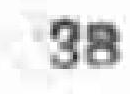38
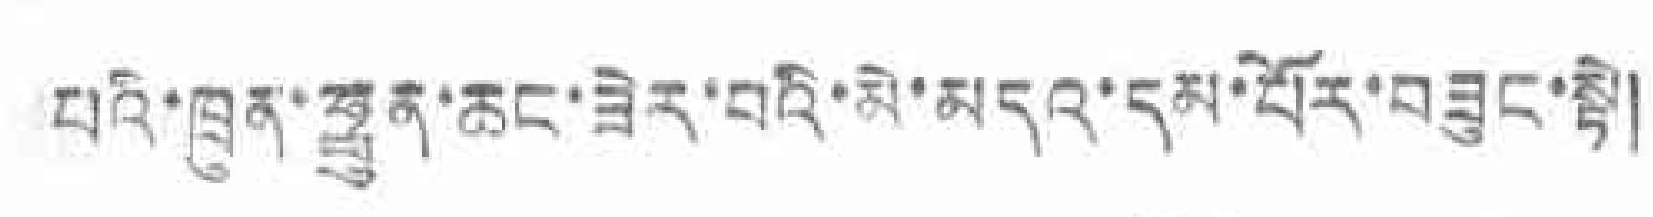པའི་ཁྲུན་ཧྥུན་ཆང་ཟེར་བའི་མེ་མདའ་དམ་པོར་བཟུང་སྟ།
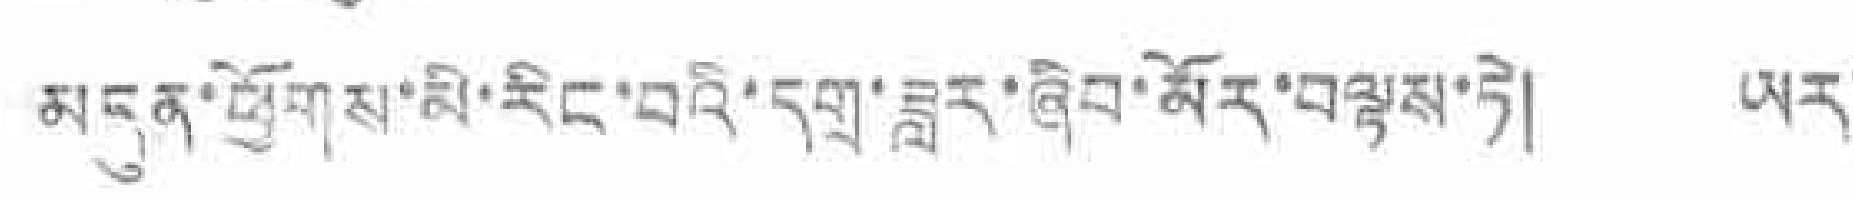མདུན་ཕྱོགས་མི་རིང་བའ་དགྲ་ཟླར་ཞིབ་མོར་བསྟས་ཏེ། ཡར་
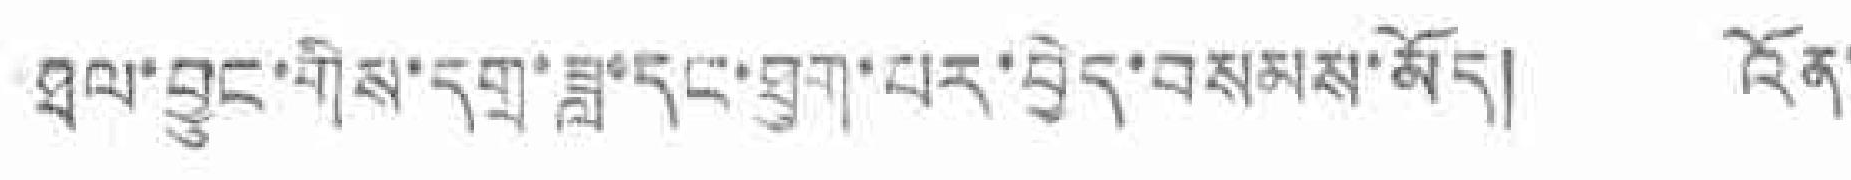ཐལ་བྱུང་གིས་དགྲ་ཟླ་དང་ཐུག་པར་བྱེད་བསམས་མོད། འོན་
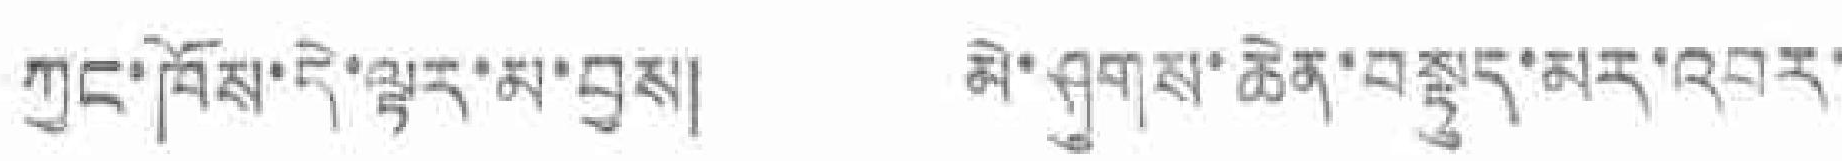ཀྱང་ཁོས་དེ་ལྟར་མ་བྱས། མེ་ཤུགས་ཆེན་བསྟུད་མར་འབར་
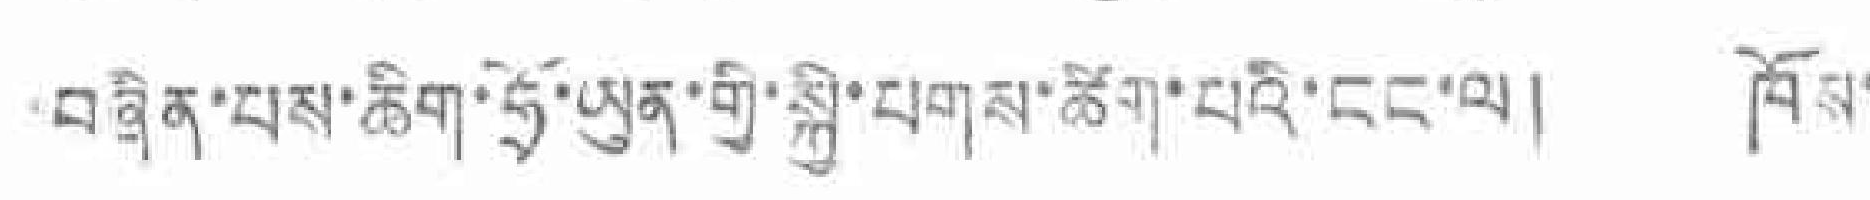བཞིན་པས་ཆིག་ཧྲོ་ཡུན་གྱི་སྐྱི་པགས་ཚིག་པའི་ངང་ལ། ཁོས་
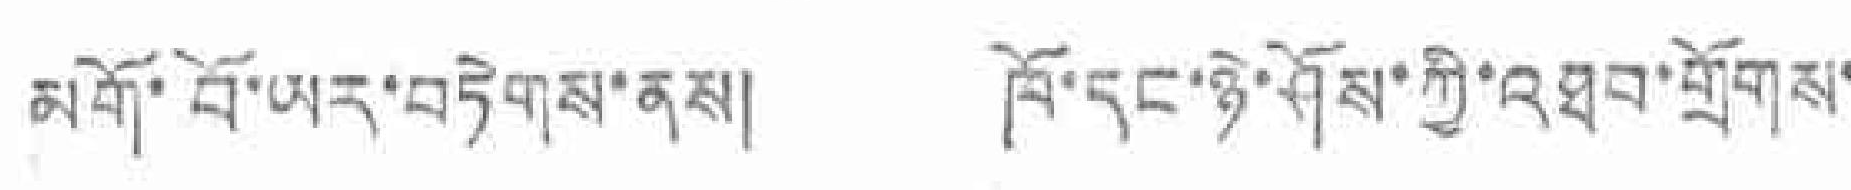མགོ་བོ་ཡར་བཏེགས་ནས། ཁོ་དང་ཉེ་ཤོས་ཀྱི་འཐབ་གྲོགས་
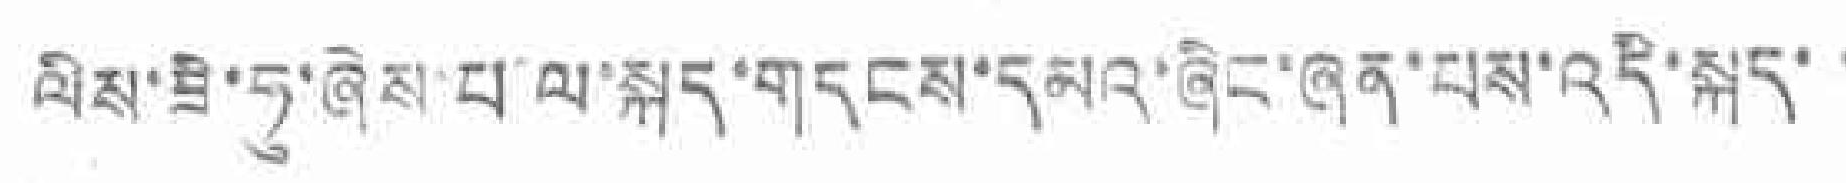ལིས་ཟི་ཧུ་ཞེས་པ་ལ་སྐད་གདངས་དམའ་ཞིང་ཞན་པས་འདི་སྐད་་
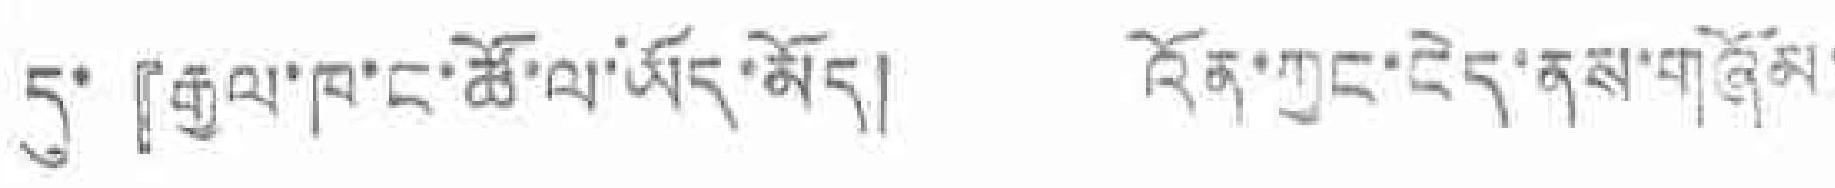དུ་『《རྒྱལ་ཁ་ང་ཚོ་ལ་མོད་མོད  འོན་ཀྱངངེེད་ནས་་ཉོམ་
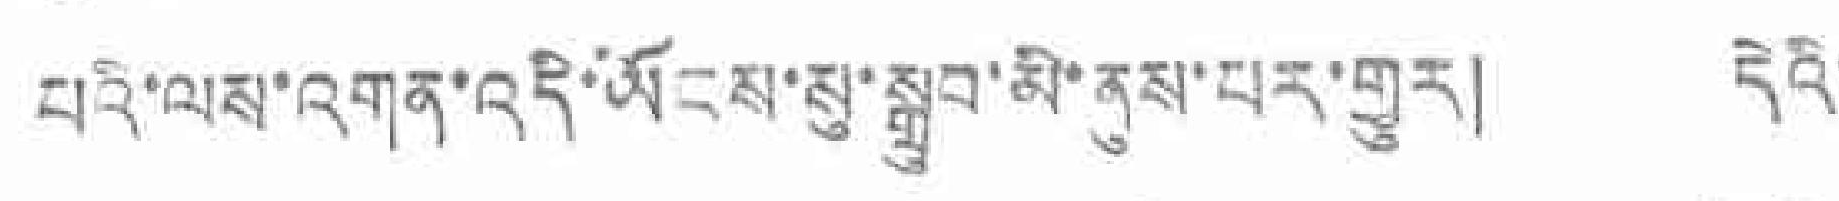པའི་ལས་འགན་འདི་ཡོངས་སུ་སྒྲུབ་མི་ནུས་པར་གྱུར། དེའི་
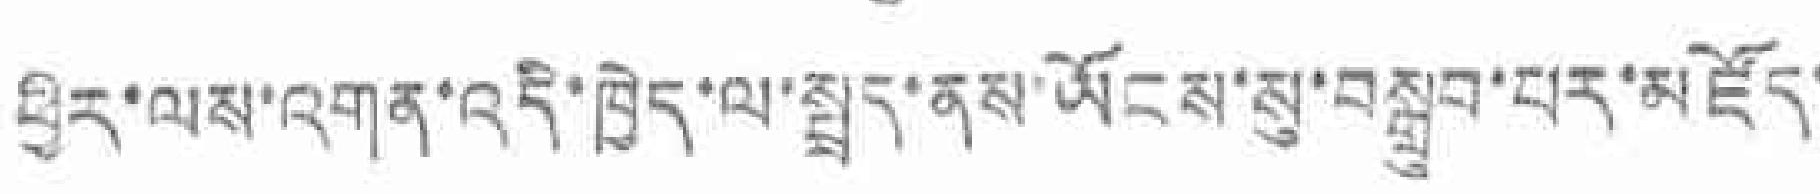ཕྱིར་ལས་འགན་འདི་ཁྱེད་ལ་སྤྲད་ནས་ཡོངས་སུ་བསྒྲུབ་པར་མཛོད་
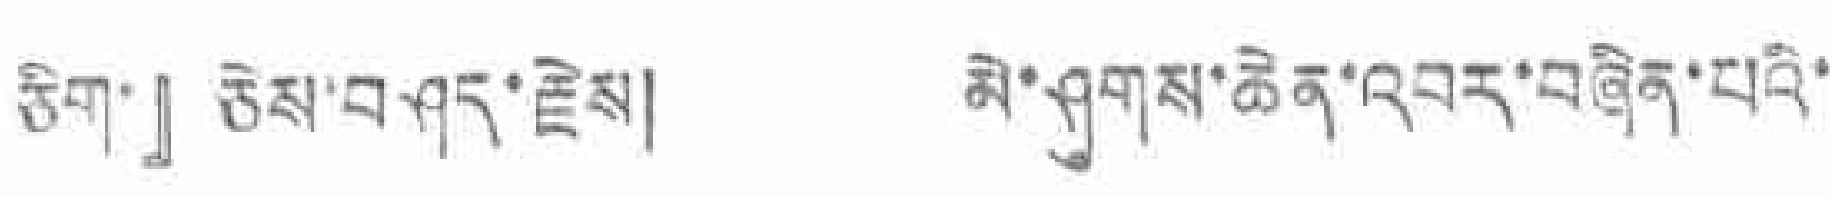ཅིག་』ཅེས་བཤད་རྗེས། མེ་ཤུགས་ཆེན་འབར་བཞིན་པའི་
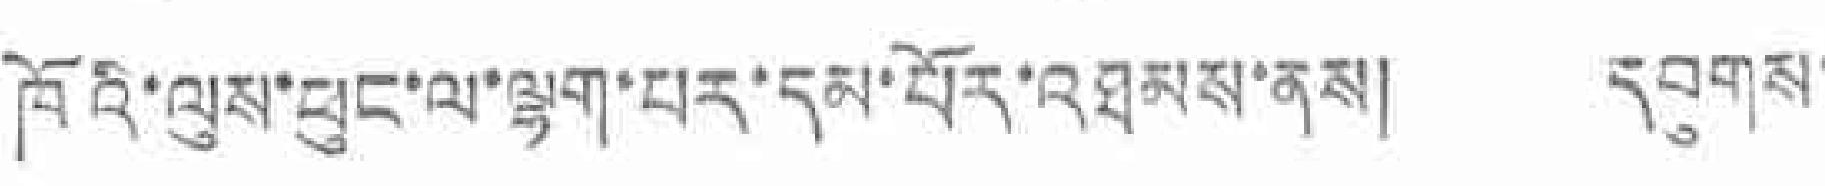ཁོའི་ལུས་ཕུང་ལ་ལྷག་པར་དམ་པོར་འཐམས་ནས། དབུགས་
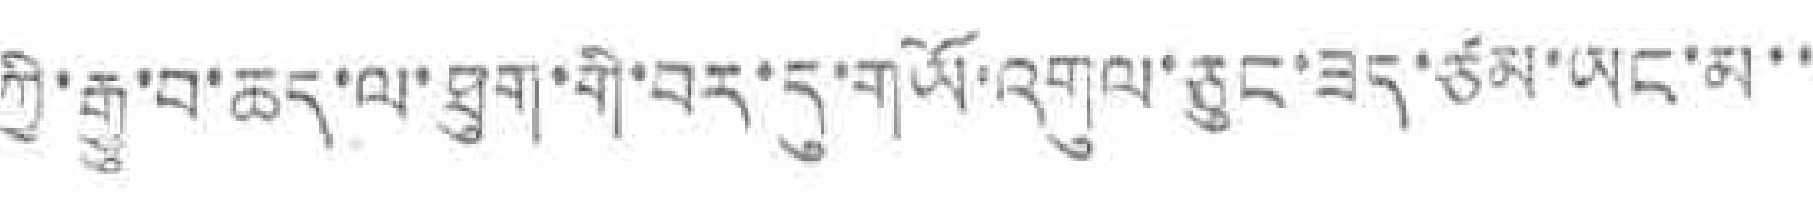ཀྱི་རྒྱུ་བ་ཆད་ལ་ཐུག་གི་བར་དུ་གཡོ་འགུལ་ཅུང་ཟད་ཙམ་ཡང་མ་་་
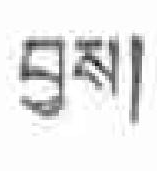བྱས།
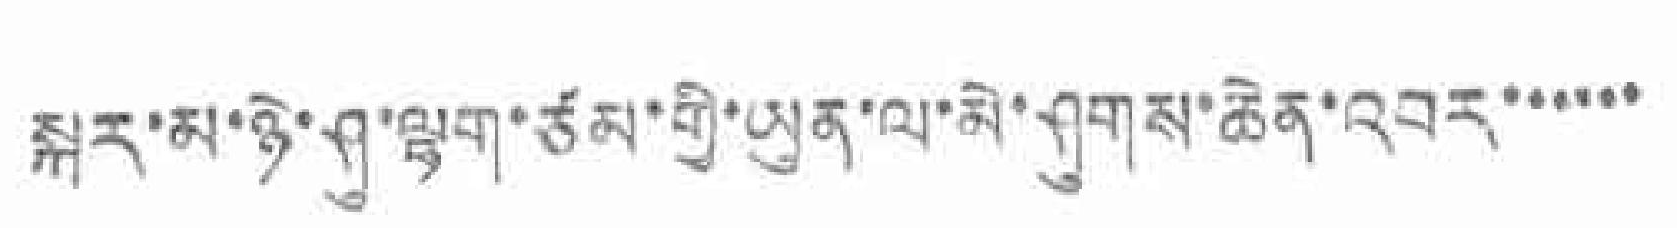སྐར་མ་ཉེ་ཤུ་ལྷག་ཙམ་གྱི་ཡུན་ལ་མེ་ཤུགས་ཆེན་འབར་་་་་་
